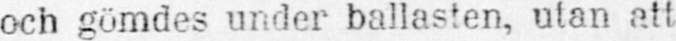och gömdes under ballasten, utan att
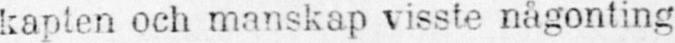kapten och mauskap visste någonting
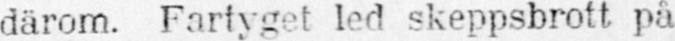därom. Fartyget led skeppsbrott på
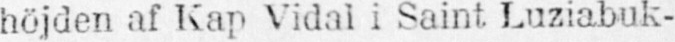höjden af Kap Vidal i Saint. Luziabuk-
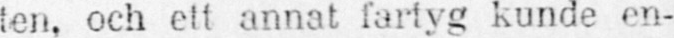ten, och ett annat fartyg kunde en-
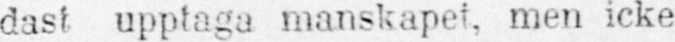dast upptaga manskapet, men icke
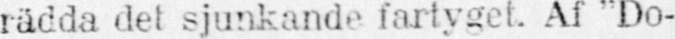rädda det sjunkande fartyget. Af “Do-
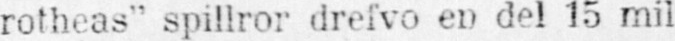rotheas“ spillror drefvo en del 15 mil
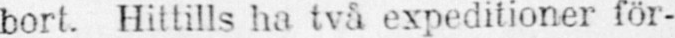bort. Hittills ha två expeditioner för-
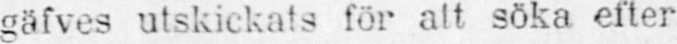gäfves utskickats för att söka efter
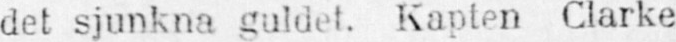det sjunkna guldet. Kapten Clarke
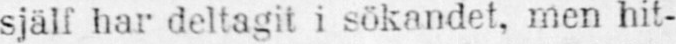själf har deltagit i sökandet, men hit-
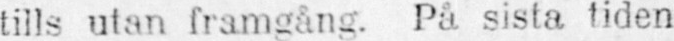tills utan framgång På sista tiden
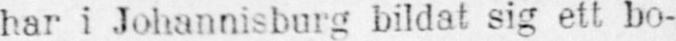har i Johannisburg bildat sig ett bo-
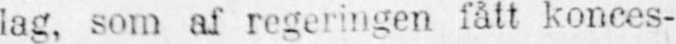lag, som af regeringen fått konces-
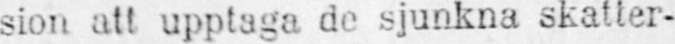sion att upptaga de sjunkna skatter-
